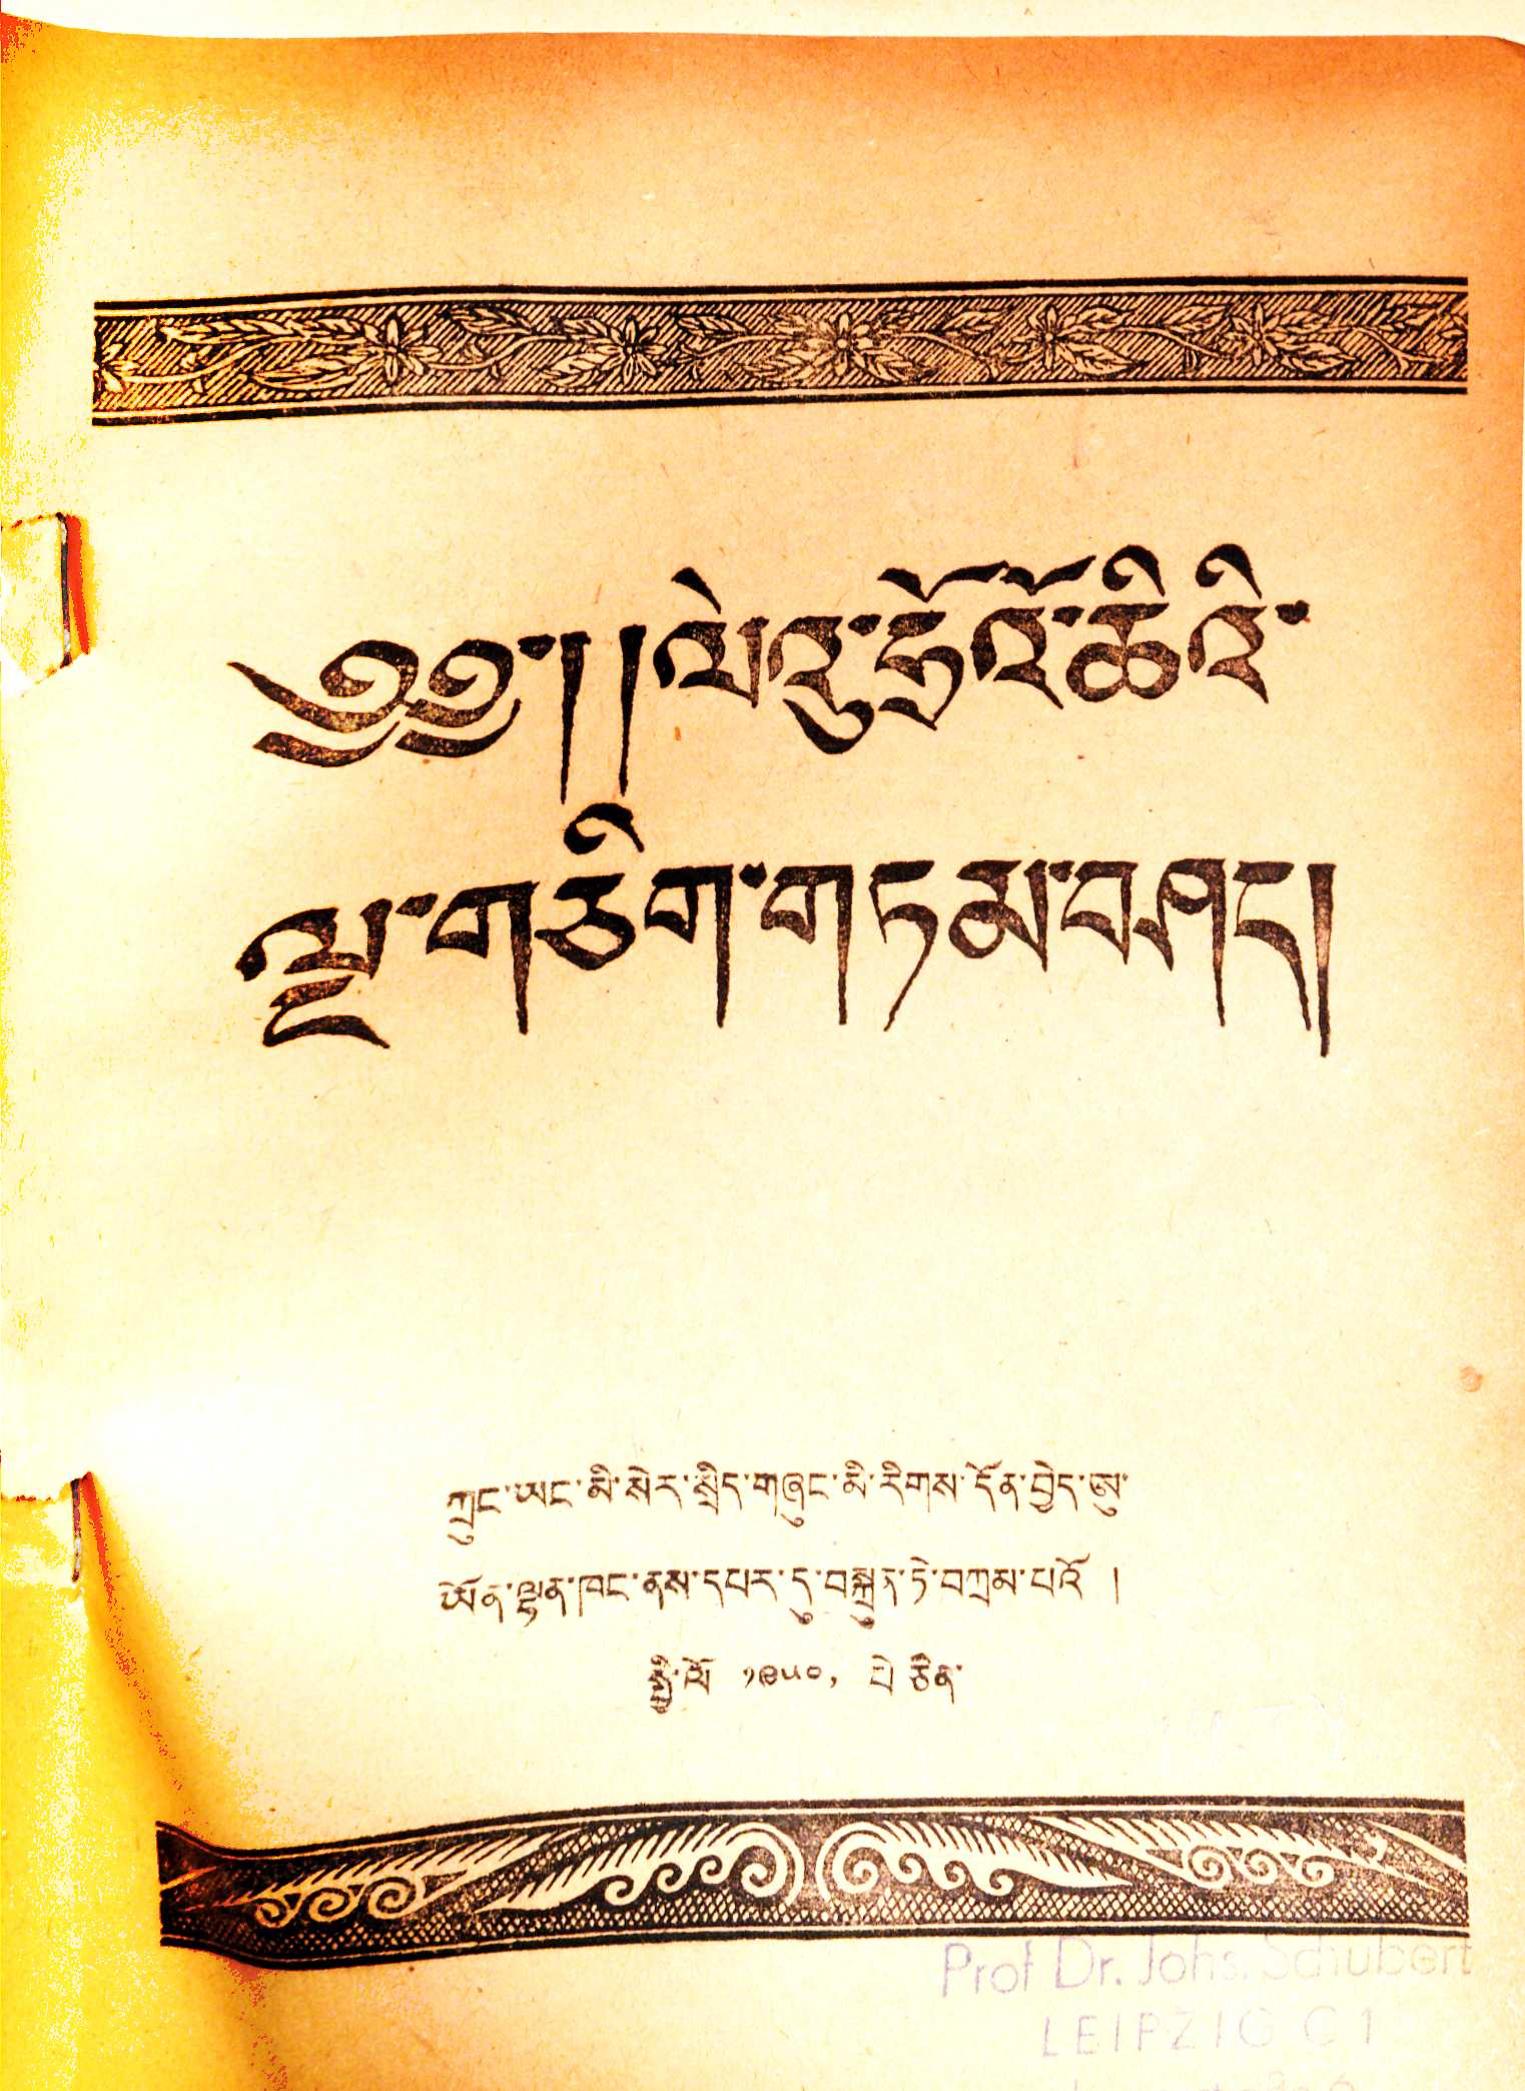༄༅་།།ལེའུ་ཧྲོའོ་ཆིའི་
ལྔ་གཅིག་གཏམ་བཤད།
ཀྲུང་ཡང་མི་སེར་སྲིད་གཞུང་མི་རིགས་དོན་བྱེད་ཨུ་
ཡོན་ལྷན་ཁང་ནས་དཔར་དུ་བསྐྲུན་ཏེ་བཀྲམ་པའོ །
སྤྱི་ལོ ༡༩༥༠, པེ་ཅིན
